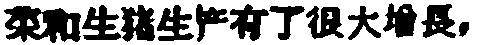菜和生猪生产有了很大增長，
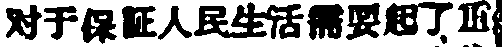对于保証人民生活需要起了重
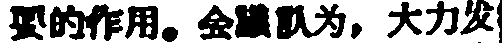要的作用。会議认为，大力发
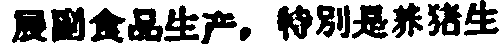展副食品生产，特別是养猪生
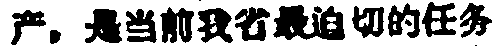产，是当前我省最迫切的任务
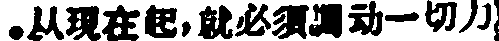。从現在起，就必須調动一切力
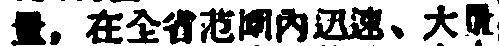量，在全省范围內迅速、大量
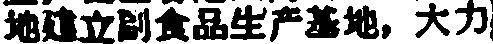地建立副食品生产基地、大力
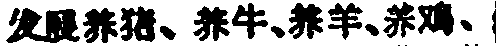发展养猪、养牛、养羊、养鳮、
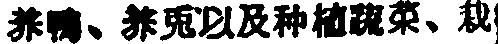养鴨、养兎以及种植蔬菜、栽
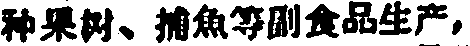种果树、捕魚等副食品生产，
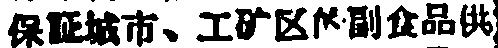保証城市、工矿区的副食品供
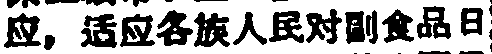应，适应各族人民对副食品日
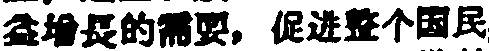益增長的需要，促进整个国民
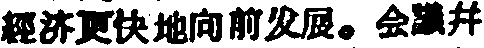經济更快地向前发展。会議并
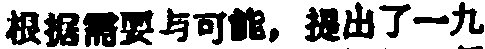根据需要与可能，提出了一九
